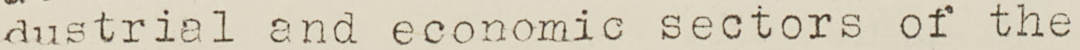dustrial and economic sectors of the
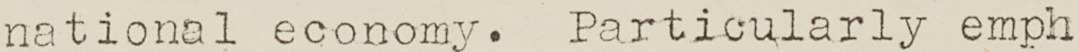national economy. Particularly emph
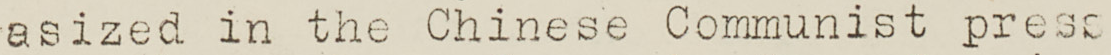asized in the Chinese Communist press
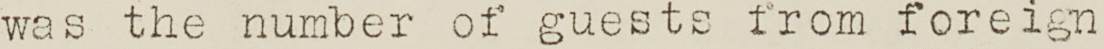was the number of guests from foreign
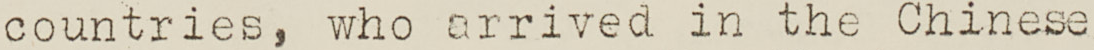countries, who arrived in the Chinese
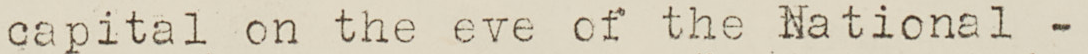capital on the eve of the National -
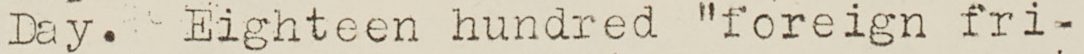Day. Eighteen hundred "foreign fri-
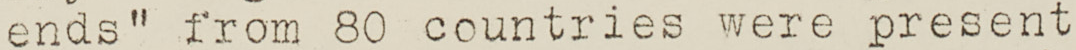ends" from 80 countries were present
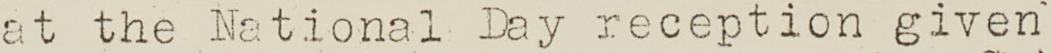at the National Day reception given
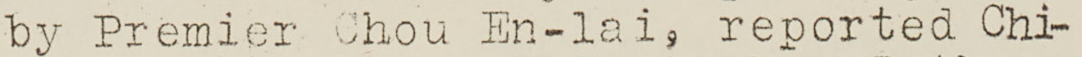by Premier Chou En-lai, reported Chi-
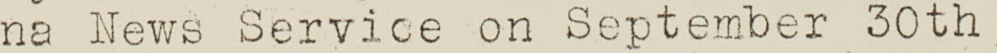na News Service on September 30th
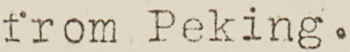from Peking.
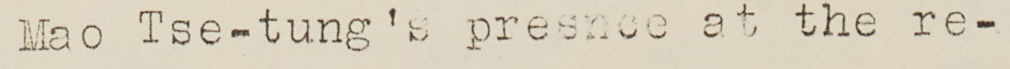Mao Tse-tung's presence at the re-
